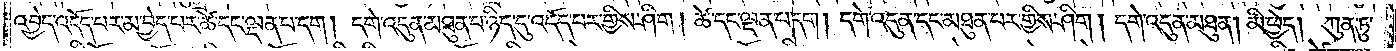འབྱེད་འདོད་པར་མ་བྱེད་པར་ཚེ་དང་ལྡན་པ་དག། དགེ་འདུན་མཐུན་པ་ཉིད་དུ་འདོད་པར་གྱིས་ཤིག། ཚེ་དང་ལྡན་པ་དག། དགེ་འདུན་དང་མཐུན་པར་གྱིས་ཤིག། དགེ་འདུན་མཐུན། མི་ཕྱེད། ཀུན་ཏུ་
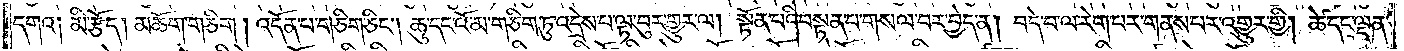དགའ༑ མི་རྩོད། མཆོག་གཅིག། འདོན་པ་གཅིག་ཅིང༌། ཆུ་དང་འོ་མ་གཅིག་ཏུ་འདྲེས་པ་ལྟ་བུར་གྱུར་ལ། སྟོན་པའི་བསྟན་པ་གསལ་བར་བྱེད་ན། བདེ་བ་ལ་རེག་པར་གནས་པར་འགྱུར་གྱི། ཚེ་དང་ལྡན་
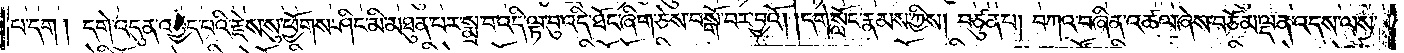པ་དག། དགེ་འདུན་འབྱེད་པའི་རྗེས་སུ་ཕྱོགས་ཤིང་མི་མཐུན་པར་སྨྲ་བ་འདི་ལྟ་བུ་འདི་ཐོང་ཞིག་ཅེས་བསྒོ་བར་བྱའོ། །དགེ་སློང་རྣམས་ཀྱིས། བཙུན་པ། བཀའ་བཞིན་འཚལ་ཞེས་བཅོམ་ལྡན་འདས་ལས་
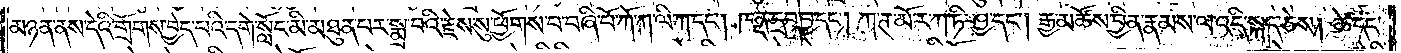མཉན་ནས་དེའི་གྲོགས་བྱེད་པའི་དགེ་སློང་མི་མཐུན་པར་སྨྲ་བའི་རྗེས་སུ་ཕྱོགས་པ་བཞི་པོ་ཀོ་ཀ་ལི་ཀ་དང༌། ཁནྡ་དྲབ་བྱ་དང༌། ཀ་ཊ་མོ་ར་ཀ་ཏི་ཤྱ་དང༌། རྒྱ་མཚོས་བྱིན་རྣམས་ལ་འདི་སྐད་ཅེས། ཚེ་དང་
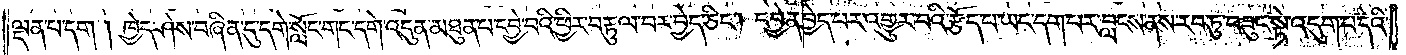ལྡན་པ་དག། ཁྱེད་ཤེས་བཞིན་དུ་དགེ་སློང་གང་དགེ་འདུན་མཐུན་པ་དབྱེ་བའི་ཕྱིར་བརྟུལ་བར་བྱེད་ཅིང༌། དབྱེན་བྱེད་པར་འགྱུར་བའི་རྩོད་པ་ཡང་དག་པར་བླངས་ནས་རབ་ཏུ་བཟུང་སྟེ་འདུག་པ་དེའི་
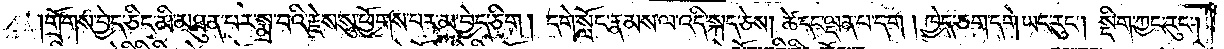གྲོགས་བྱེད་ཅིང་མི་མཐུན་པར་སྨྲ་བའི་རྗེས་སུ་ཕྱོགས་པར་མ་བྱེད་ཅིག། དགེ་སློང་རྣམས་ལ་འདི་སྐད་ཅེས། ཚེ་དང་ལྡན་པ་དག། ཁྱེད་ཅག་དགེ་ཡང་རུང༌། སྡིག་ཀྱང་རུང༌།
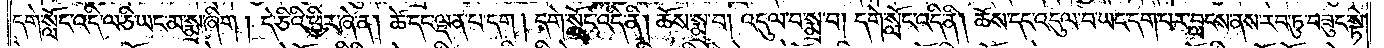དགེ་སློང་འདི་ལ་ཅི་ཡང་མ་སྨྲ་ཞིག། དེ་ཅིའི་ཕྱིར་ཞེ་ན། ཚེ་དང་ལྡན་པ་དག། དགེ་སློང་འདི་ནི། ཆོས་སྨྲ་བ། འདུལ་བ་སྨྲ་བ། དགེ་སློང་འདི་ནི། ཆོས་དང་འདུལ་བ་ཡང་དག་པར་བླངས་ནས་རབ་ཏུ་བཟུང་སྟེ་
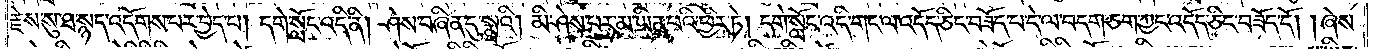རྗེས་སུ་ཐ་སྙད་འདོགས་པར་བྱེད་པ། དགེ་སློང་འདི་ནི། ཤེས་བཞིན་དུ་སྨྲའི། མི་ཤེས་པར་མ་ཡིན་པའི་ཕྱིར་ཏེ། དགེ་སློང་འདི་གང་ལ་འདོད་ཅིང་བཟོད་པ་དེ་ལ་བདག་ཅག་ཀྱང་འདོད་ཅིང་བཟོད་དོ། །ཞེས་
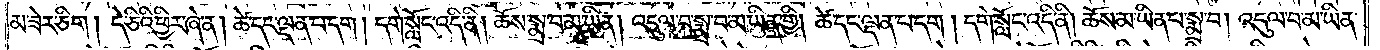མ་ཟེར་ཅིག། དེ་ཅིའི་ཕྱིར་ཞེ་ན། ཚེ་དང་ལྡན་པ་དག། དགེ་སློང་འདི་ནི། ཆོས་སྨྲ་བ་མ་ཡིན། འདུལ་བ་སྨྲ་བ་མ་ཡིན་གྱི། ཚེ་དང་ལྡན་པ་དག། དགེ་སློང་འདི་ནི། ཆོས་མ་ཡིན་པ་སྨྲ་བ། འདུལ་བ་མ་ཡིན་
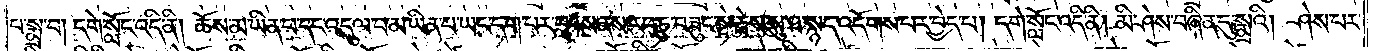པ་སྨྲ་བ། དགེ་སློང་འདི་ནི། ཆོས་མ་ཡིན་པ་དང་འདུལ་བ་མ་ཡིན་པ་ཡང་དག་པར་བླངས་ནས་རབ་ཏུ་བཟུང་སྟེ་རྗེས་སུ་ཐ་སྙད་འདོགས་པར་བྱེད་པ། དགེ་སློང་འདི་ནི། མི་ཤེས་བཞིན་དུ་སྨྲའི། ཤེས་པར་
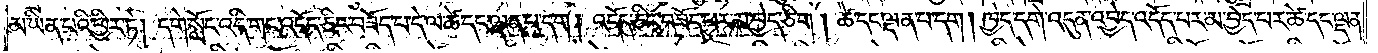མ་ཡིན་པའི་ཕྱིར་ཏེ། དགེ་སློང་འདི་གང་འདོད་ཅིང་བཟོད་པ་དེ་ལ་ཚེ་དང་ལྡན་པ་དག། འདོད་ཅིང་བཟོད་པར་མ་བྱེད་ཅིག། ཚེ་དང་ལྡན་པ་དག། ཁྱེད་དགེ་འདུན་འབྱེད་འདོད་པར་མ་བྱེད་པར་ཚེ་དང་ལྡན་
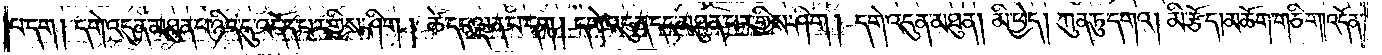པ་དག། དགེ་འདུན་མཐུན་པ་ཉིད་དུ་འདོད་པར་གྱིས་ཤིག། ཚེ་དང་ལྡན་པ་དག། དགེ་འདུན་དང་མཐུན་པར་གྱིས་ཤིག། དགེ་འདུན་མཐུན། མི་ཕྱེད། ཀུན་ཏུ་དཀའ། མི་རྩོད། མཆོག་གཅིག།འདོན་
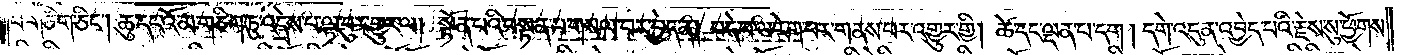པ་གཅིག་ཅིང༌། ཆུ་དང་འོ་མ་གཅིག་ཏུ་འདྲེས་པ་ལྟ་བུར་གྱུར་ལ། སྟོན་པའི་བསྟན་པ་གསལ་བར་བྱེད་ན། བདེ་བ་ལ་རེག་པར་གནས་པར་འགྱུར་གྱི། ཚེ་དང་ལྡན་པ་དག། དགེ་འདུན་འབྱེད་པའི་རྗེས་སུ་ཕྱོགས་
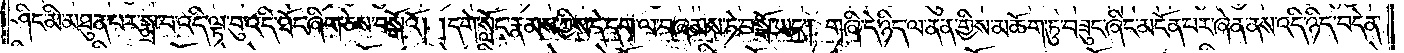ཤིང་མི་མཐུན་པར་སྨྲ་བ་འདི་ལྟ་བུ་འདི་ཐོང་ཞིག་ཅེས་བསྒོའོ། །དགེ་སློང་རྣམས་ཀྱིས་དེ་དག་ལ་བཞམས་ཏེ་བསྒོ་ཡང༌། གཞི་དེ་ཉིད་ལ་ནན་གྱིས་མཆོག་ཏུ་བཟུང་ཞིང་མངོན་པར་ཞེན་ནས་འདི་ཉིད་བདེན་
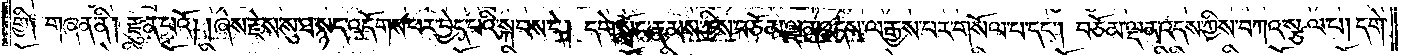གྱི༑ གཞན་ནི། རྫུན་པའོ། །ཞེས་རྗེས་སུ་ཐ་སྙད་འདོགས་པར་བྱེད་པའི་སྐབས་དེ། དགེ་སློང་རྣམས་ཀྱིས་བཅོམ་ལྡན་འདས་ལ་རྒྱས་པར་གསོལ་པ་དང༌། བཅོམ་ལྡན་འདས་ཀྱིས་བཀའ་སྩལ་པ། དགེ་
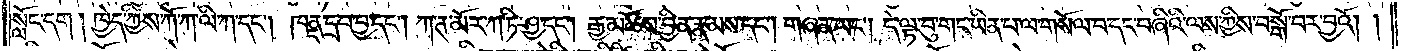སློང་དག། ཁྱེད་ཀྱིས་ཀོ་ཀ་ལི་ཀ་དང༌། ཁནྡ་དྲབ་བྱ་དང༌། ཀ་ཊ་མོ་ར་ཀ་ཏི་ཤྱ་དང༌། རྒྱ་མཚོས་བྱིན་རྣམས་དང༌། གཞན་ཡང༌། དེ་ལྟ་བུ་གང་ཡིན་པ་ལ་གསོལ་བ་དང་བཞིའི་ལས་ཀྱིས་བསྒོ་བར་བྱའོ། །
